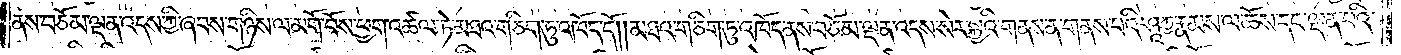ནས་བཅོམ་ལྡན་འདས་ཀྱི་ཞབས་གཉིས་ལ་མགོ་བོས་ཕྱག་འཚལ་ཏེ་མཐའ་གཅིག་ཏུ་འཁོད་དོ། །མཐའ་གཅིག་ཏུ་འཁོད་ནས་བཅོམ་ལྡན་འདས་སེར་སྐྱའི་གནས་ན་གནས་པའི་ཤཱཀྱ་རྣམས་ལ་ཆོས་དང་ལྡན་པའི་
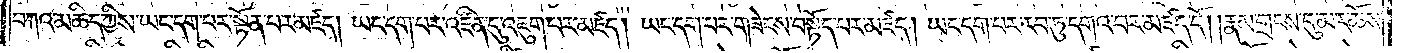བཀའ་མཆིད་ཀྱིས་ཡང་དག་པར་སྟོན་པར་མཛད། ཡང་དག་པར་འཛིན་དུ་འཇུག་པར་མཛད། ཡང་དག་པར་གཟེངས་བསྟོད་པར་མཛད། ཡང་དག་པར་རབ་ཏུ་དགའ་བར་མཛད་དོ། །རྣམ་གྲངས་དུ་མར་ཆོས་
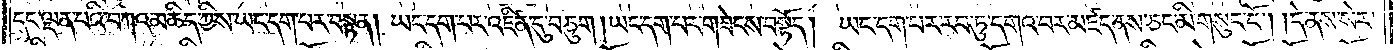དང་ལྡན་པའི་བཀའ་མཆིད་ཀྱིས་ཡང་དག་པར་བསྟན། ཡང་དག་པར་འཛིན་དུ་བཅུག །ཡང་དག་པར་གཟེངས་བསྟོད། ཡང་དག་པར་རབ་ཏུ་དགའ་བར་མཛད་ནས་ཅང་མི་གསུང་ངོ༌། །དེ་ནས་སེར་
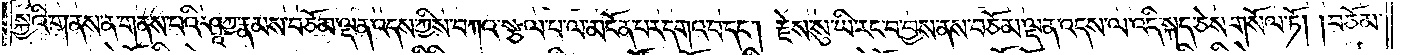སྐྱའི་གནས་ན་གནས་པའི་ཤཱཀྱ་རྣམས་བཅོམ་ལྡན་འདས་ཀྱིས་བཀའ་སྩལ་པ་ལ་མངོན་པར་དགའ་བ་དང༌། རྗེས་སུ་ཡི་རང་བ་བྱས་ནས་བཅོམ་ལྡན་འདས་ལ་འདི་སྐད་ཅེས་གསོལ་ཏོ། །བཅོམ་
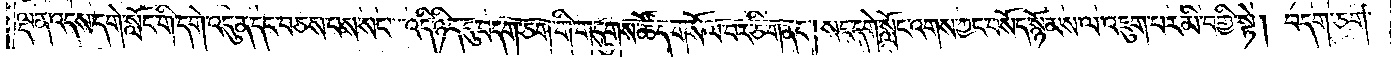ལྡན་འདས་དགེ་སློང་གི་དགེ་འདུན་དང་བཅས་པས་སང་འདི་ཉིད་དུ་བདག་ཅག་གི་གདུགས་ཚོད་གསོལ་བར་ཅི་གནང༌། སང་དགེ་སློང་འགས་ཀྱང་བསོད་སྙོམས་ལ་འཇུག་པར་མི་བགྱི་སྟེ། བདག་ཅག་
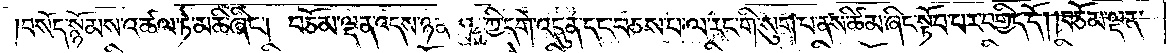།བསོད་སྙོམས་འཚལ་ཏེ་མཆི་ཞིང༌། བཅོམ་ལྡན་འདས་ཉན་ཐོས་ཀྱི་དགེ་འདུན་དང་བཅས་པ་ལ་རང་གི་སུག་པ་ནས་ཚིམ་ཞིང་སྟོབ་པར་བགྱིད་དོ། །བཅོམ་ལྡན་
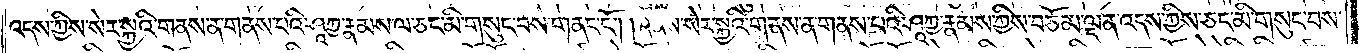འདས་ཀྱིས་སེར་སྐྱའི་གནས་ན་གནས་པའི་ཤཱཀྱ་རྣམས་ལ་ཅང་མི་གསུང་བས་གནང་ངོ༌། །དེ་ནས་སེར་སྐྱའི་གནས་ན་གནས་པའི་ཤཱཀྱ་རྣམས་ཀྱིས་བཅོམ་ལྡན་འདས་ཀྱིས་ཅང་མི་གསུང་བས་
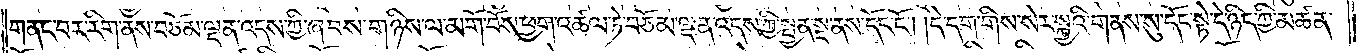གནང་བར་རིག་ནས་བཅོམ་ལྡན་འདས་ཀྱི་ཞབས་གཉིས་ལ་མགོ་བོས་ཕྱག་འཚལ་ཏེ་བཅོམ་ལྡན་འདས་ཀྱི་སྤྱན་སྔ་ནས་དོང་ངོ༌། །དེ་དག་གིས་སེར་སྐྱའི་གནས་སུ་དོང་སྟེ་དེ་ཉིད་ཀྱི་མཚན་
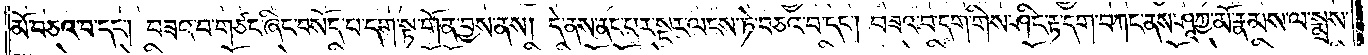མོ་བཅའ་བ་དང༌། བཟའ་བ་གཙང་ཞིང་བསོད་པ་དག་སྟ་གོན་བྱས་ནས། དེ་ནས་ནང་པར་སྔར་ལངས་ཏེ་བཅའ་བ་དང༌། བཟའ་བ་དག་གིས་ཤིང་རྟ་དག་བཀང་ནས་ཤཱཀྱ་མོ་རྣམས་ལ་སྨྲས་
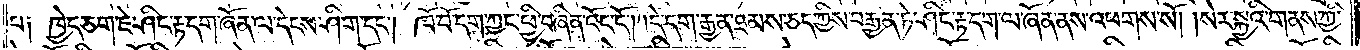པ༑ ཁྱེད་ཅག་ཇེ་ཤིང་རྟ་དག་ཞོན་ལ་དེངས་ཤིག་དང༌། ཁོ་བོ་དག་ཀྱང་ཕྱི་བཞིན་འོང་ངོ༌། །དེ་དག་རྒྱན་ཐམས་ཅད་ཀྱིས་བརྒྱན་ཏེ་ཤིང་རྟ་དག་ལ་ཞོན་ནས་འཕགས་སོ། །སེར་སྐྱའི་གནས་ཀྱི་
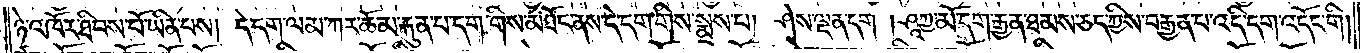ཉེ་འཁོར་ཐིབས་པོ་ཡིན་པས། དེ་དག་ལམ་ཀར་ཆོམ་རྐུན་པ་དག་གིས་མཐོང་ནས་དེ་དག་གིས་སྨྲས་པ། ཤེས་ལྡན་དག །ཤཱཀྱ་མོ་དག་རྒྱན་ཐམས་ཅད་ཀྱིས་བརྒྱན་པ་འདི་དག་འདོང་གི།
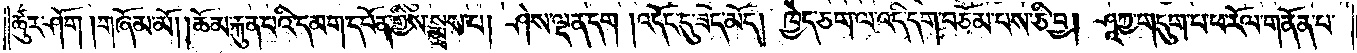ཚུར་ཤོག །གཞོམ་མོ། །ཆོམ་རྐུན་པའི་དམག་དཔོན་གྱིས་སྨྲས་པ། ཤེས་ལྡན་དག །འདོང་དུ་ཟད་མོད། ཁྱེད་ཅག་ལ་འདི་དག་བཅོམ་པས་ཅི་བྱ། ཤཱཀྱ་གདུག་པ་ཕ་རོལ་གནོན་པ་
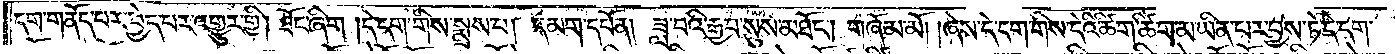དག་གནོད་པར་བྱེད་པར་འགྱུར་གྱི། ཐོང་ཞིག །དེ་དག་གིས་སྨྲས་པ། དམག་དཔོན། ཟླ་བའི་རྒྱབ་སུས་མཐོང༌། གཞོམ་མོ། །ཞེས་དེ་དག་གིས་དེའི་ཚིག་ཚིག་མ་ཡིན་པར་བྱས་ཏེ་དེ་དག་
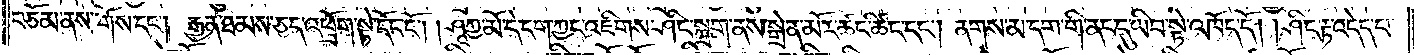བཅོམ་ནས་གོས་དང༌། རྒྱན་ཐམས་ཅད་འཕྲོག་སྟེ་དོང་ངོ༌། །ཤཱཀྱ་མོ་དེ་དག་ཀྱང་འཇིགས་ཤིང་སྐྲག་ནས་སྒྲེན་མོར་ཚང་ཚིང་དང༌། ནགས་མ་དག་གི་ནང་དུ་ཡིབ་སྟེ་འཁོད་དོ། །ཤིང་རྟ་འདེད་པ་
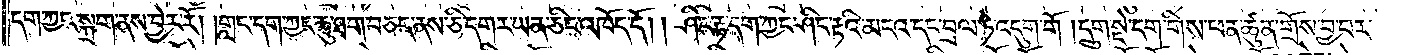དག་ཀྱང་སྐྲག་ནས་བྱེར་རོ། །གླང་དག་ཀྱང་ཆུ་ཐག་བཅད་ནས་ཅི་དགར་ཡན་ཅིང་འཁོད་དོ། །ཤིང་རྟ་དག་ཀྱང་ཤིང་རྟའི་མངའ་དང་བྲལ་ཏེ་འདུག་གོ །དྲུག་སྡེ་དག་གིས་ཕན་ཚུན་གྲོས་བྱ་བར་
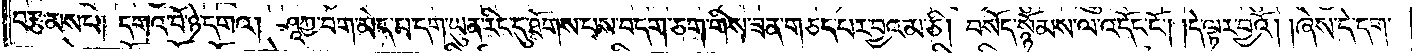བརྩམས་པ། དགའ་བོ་ཉེ་དགའ། ཤཱཀྱ་བག་མེད་པ་དག་ཡུན་རིང་དུ་ཐོགས་པས་བདག་ཅག་གིས་ཟན་གཅད་པར་བྱའམ་ཅི། བསོད་སྙོམས་ལ་འདོང་ངོ༌། །དེ་ལྟར་བྱའོ། །ཞེས་དེ་དག་
